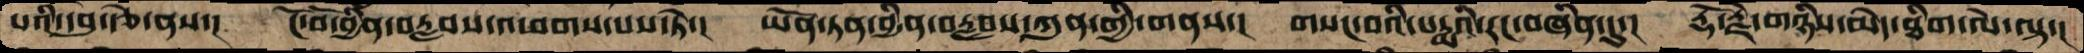པའི་དབུ་རྩེ་ནས་།  ངོ་བོ་བྱིན་བརླབས་འཕགས་པས་ཏེ་།  ཡོན་ཏན་བྱིན་བརླབས་ཀུན་གྱི་གནས་།  གསང་བའི་པདྨའི་རང་བཞིན་དུ་།  རྡོ་རྗེ་གཉིས་མེད་ཐིག་ལེ་ལྟ་།
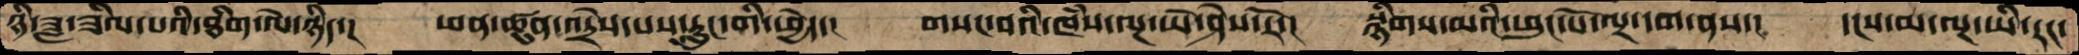ཉི་ཟླ་ཟིལ་པའི་ཐིག་ལེ་ཉིད་།  ཕན་ཚུན་འདྲེས་པས་རླུང་གི་ཕྱེད་།  གསང་བའི་ཁཾས་ལྔ་ཡེ་ཤེས་རོ་།  སྙིགས་མའི་ཕུང་པོ་ལྔ་དག་ནས་།  དངས་མ་ལྔ་ཡི་རང་
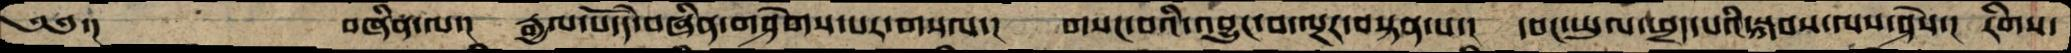༄༅་།    བཞིན་ལ་།  རྒྱལ་པོ་དེ་བཞིན་གཤེགས་པར་གསལ་།  གསང་བའི་འབྱུང་བ་ལྔར་བསྟན་པ་།  དབང་ཡུལ་འཕྲད་པའི་སྐབས་ལས་ཤེས་།  རིགས་
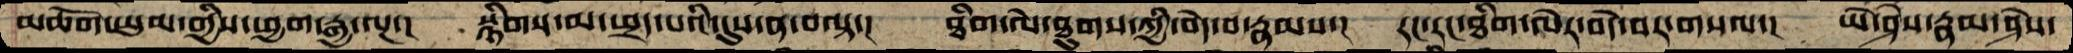མཆོག་ཡུལ་གྱིས་ཕྱག་རྒྱ་ལྔ་།  སྙིགས་མ་ཕྲད་པའི་དུས་ན་བལྟ་།  ཐིག་ལེ་ཐུགས་ཀྱི་བདེ་བ་རྣམས་།  རང་རང་ཐིག་ལེར་བདེ་བར་གསལ་།  ཡེ་ཤེས་རྣམ་ཤེས་
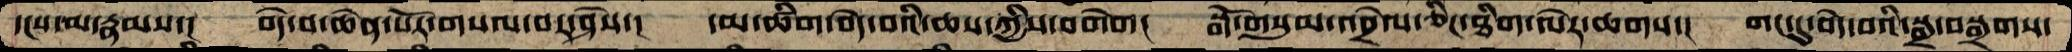དངས་མ་རྣམས་།  བདེ་བ་ཆེན་པོར་གསལ་བར་ཤེས་།  དམ་ཚིག་བདེ་བའི་ཆས་ཀྱིས་བགེག།  སྒོ་གསུམ་འབྲེལ་ཅིང་ཐིག་ལེར་ཆགས་།  གང་དུ་བདེ་བའི་སྒྲ་བསྒྲགས་
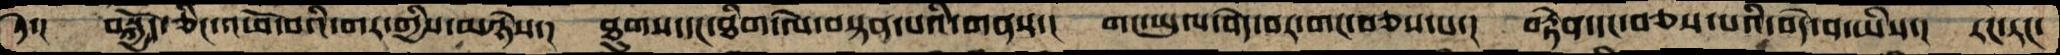ཏེ་།  བསྐྱོད་ཅིང་འཕོ་བའི་གར་གྱིས་མཉེས་།  ཐུགས་དང་ཐིག་ལེ་བསྟན་པའི་གནས་།  གང་ཡུལ་བདེ་བར་གང་བཅས་པ་།  བརྟེན་དང་བཅས་པའི་བདེ་བ་ཡིས་།  རང་རང་
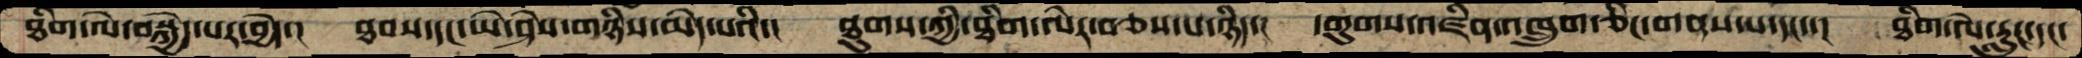ཐིག་ལེ་བསྐྱེད་པར་བྱེད་།  ཐབས་དང་ཡེ་ཤེས་གཉིས་མེད་པའི་།  ཐུགས་ཀྱི་ཐིག་ལེར་བཅས་པ་ཉིད་།  དགུགས་འཛིན་འཁྲུག་ཅིང་གནས་པ་དང་་།  ཐིག་ལེ་རླུང་དང་
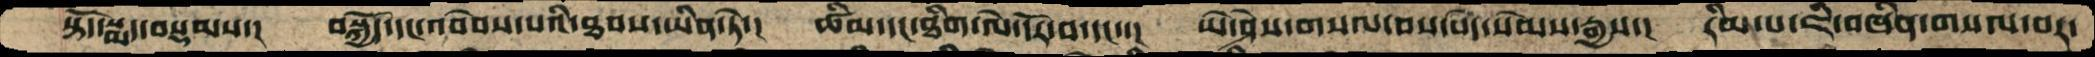སྟོད་སྨད་བསྡམས་།  བསྐྱོད་དང་འབེབས་པའི་ཐབས་ཡིན་ཏེ་།  ཚིམ་དང་ཐིག་ལེ་དོར་བ་དང་་།  ཡེ་ཤེས་གསལ་བས་བདེ་སེམས་རྒྱས་།  རིམ་པ་ཇི་བཞིན་གསལ་བར་
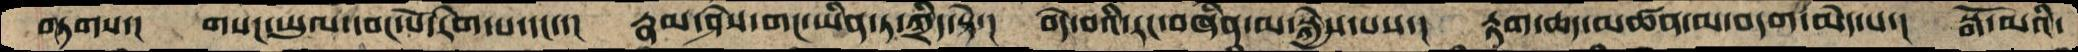བཏགས་།  གསང་ཡུལ་དབང་པོ་རིག་པ་དང་་།  རྣམ་ཤེས་གང་ཡིན་ཏ་ཀྲིད་སྟེ་།  བདེ་བའི་རང་བཞིན་མ་སྐྱེས་པས་།  རྟག་ཆད་མཚན་མ་བདག་མེད་པ་།  སྒོ་མའི་
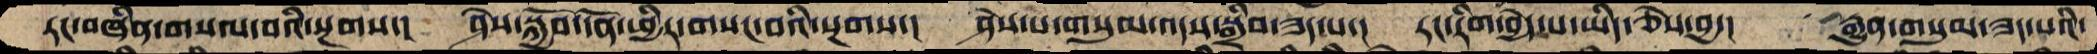རང་བཞིན་གསལ་བའི་སྔགས་།  ཤེས་སྐྱོབ་དོན་ཕྱིར་གསང་བའི་སྔགས་།  ཤེས་པ་གསུམ་འདས་སྒྲིབ་ཟད་པ་།  རང་རིག་བྱེད་པ་ཡིད་ཅེས་བྱ་།  རྒྱུན་གསུམ་ཟད་པའི་
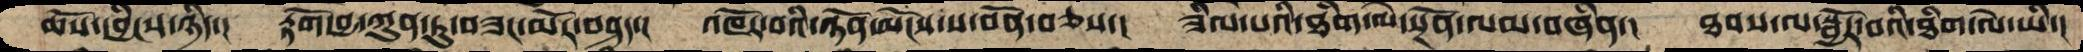ཆོས་དབྱིངས་ཉིད་།  རྟོག་བྱ་ཀུན་ཏུ་བཟང་མོར་མཤད་།  འཁོར་བའི་ཉོན་མོངས་ས་བོན་བཅས་།  ཟིལ་པའི་ཐིག་ལེ་སྔོན་ལམ་བཞིན་།  ཐབས་ལ་སྦྱོར་བའི་ཐིག་ལེ་ཡི་།
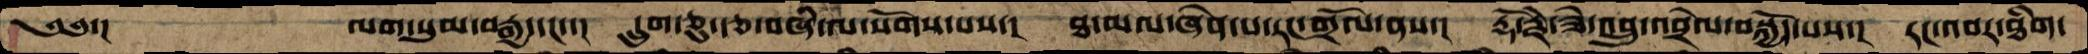༄༅་།     ལག་སུམ་བརྒྱ་དང་་།  དྲུག་ཅུ་རྩ་བཞི་ལ་སོགས་པས་།  ཐ་མལ་ཞེན་པ་རང་གྲོལ་ནས་།  རྡོ་རྗེ་ཟེ་འབྲུ་འབྲེལ་བསྐྱོད་པས་།  རང་འབར་ཐིག་
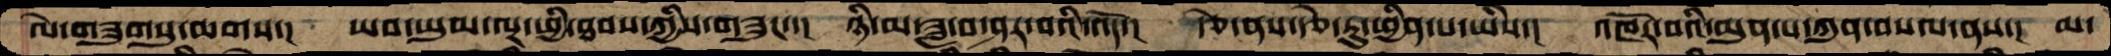ལེ་གཟུགསུ་ཆགས་།  ཡབ་ཡུམ་ལྔ་ཕྱི་ཐབས་ཀྱིས་གཟུང་་།  ཉི་མ་ཟླ་བ་ཤར་བའི་འོད་།  རྩེ་ནས་རྩེ་རུ་ཕྱིན་པ་ཡིས་།  འཁོར་བའི་མུན་པ་ཀུན་བསལ་ནས་།  མ་
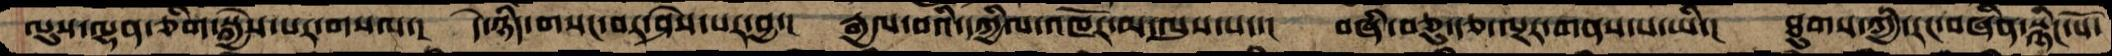ལུས་ལྷན་ཅིག་སྐྱེས་པར་གསལ་།  དེ་ཉིད་གསང་བར་ཤེས་པར་བྱ་།  རྒྱལ་བའི་དཀྱིལ་འཁོར་མ་ལུས་པད་།  བཞི་བཅུ་རྩ་ལྔར་གནས་པ་ཡི་།  ཐུགས་ཀྱི་རང་བཞིན་སྙིང་པོ་
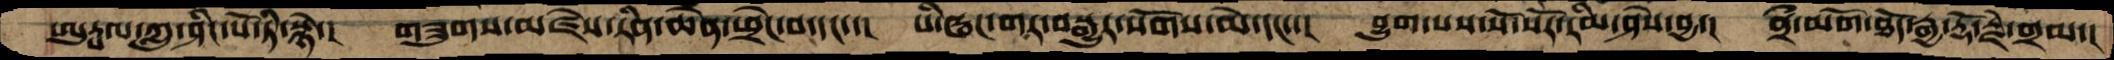ཨུཏྤལ་ཀླུ་ཤིང་པོ་ཏི་སྙེ་།  གཟུགས་མཛེས་རིན་ཆེན་ཕྲེང་བ་དང་་།  པི་ཝང་གར་བསྒྱུར་སོགས་མེ་དང་་།  བྱུག་པས་སོ་སོར་རིམ་ཤེས་བྱ་།  ནྲྀ་མགོ་ཐོད་རྒྱ་རྡོ་རྗེ་གྲམ་།
